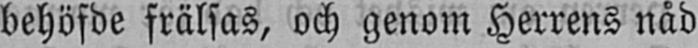behöfde frälsas, och genom Herrens nåd
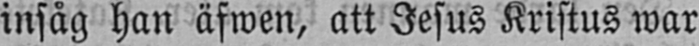insåg han äfwen, att Jesus Kristus war
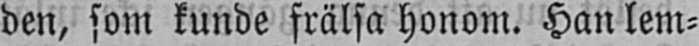den, som kunde frälsa honom. Han lem-
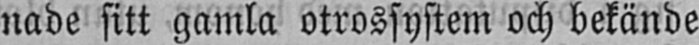nade sitt gamla otrossystem och bekände
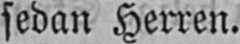sedan Herren.
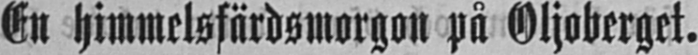En himmelsfärdsmorgon på Oljoberget.
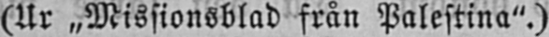(Ur „Missionsblad från Palestina".)
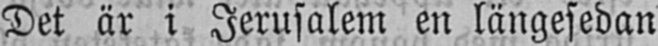Det är i Jerusalem en längesedan
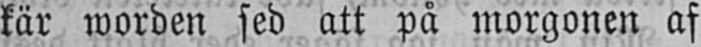kär worden sed att på morgonen af
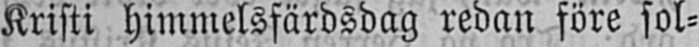Kristi himmelsfärdsdag redan före sol-
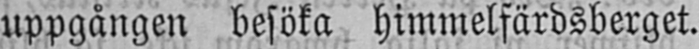uppgången besöka himmelfärdsberget.
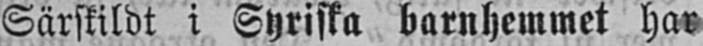Särskildt i Syriska barnhemmet har
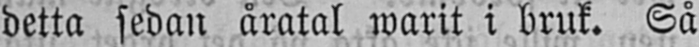detta sedan åratal warit i bruk. Så
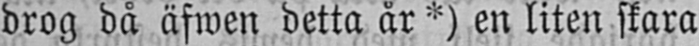drog då äfwen detta år *) en liten skara
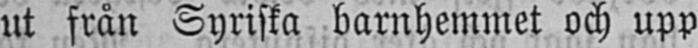ut från Syriska barnhemmet och upp
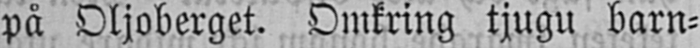på Oljoberget. Omkring tjugu barn-
